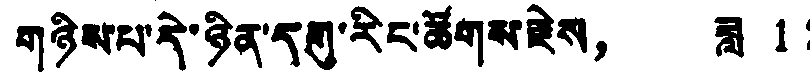གཉིས་པ་དེ་ཉིན་དགུ་རིང་ཚོགས་རྗེས， ཟླ 12
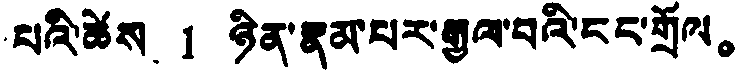པའི་ཚེས 1 ཉིན་རྣམ་པར་རྒྱལ་བའི་ངང་གྲོལ。
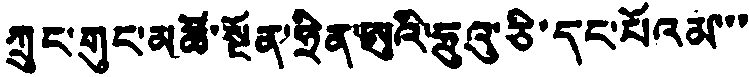ཀྲུང་གུང་མཚོ་སྔོན་ཧྲིན་ཨུའི་ཧྲུའུ་ཅི་དང་པོའམ་་་
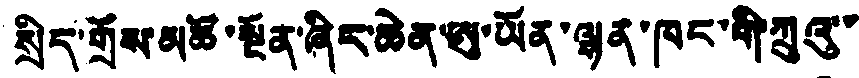སྲིད་གྲོས་མཚོ་སྔོན་ཞིང་ཆེན་ཨུ་ཡོན་ལྷན་ཁང་གི་ཀྲུའུ་
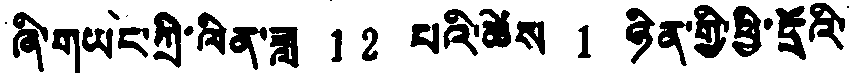ཞི་གཡང་ཀྲི་ལིན་ཟླ 12 པའི་ཚེས 1 ཉིན་གྱི་ཕྱི་དྲོའི་
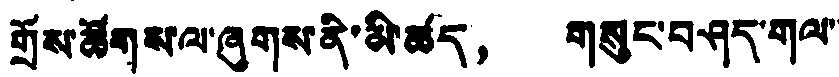གྲོས་ཚོགས་ལ་ཞུགས་ནི་མི་ཚད， གསུང་བཤད་གལ་་
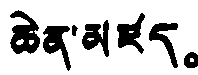ཆེན་མཛད。
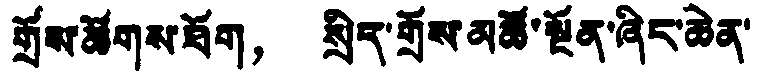གྲོས་ཚོགས་ཐོག， སྲིད་གྲོས་མཚོ་སྔོན་ཞིང་ཆེན་
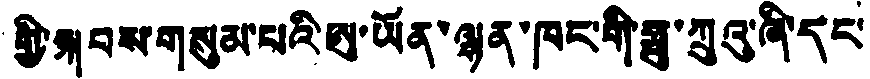གྱི་སྐབས་གསུམ་པའི་ཨུ་ཡོན་ལྷན་ཁང་གི་ཧྥུ་ཀྲུའུ་ཞི་དང་
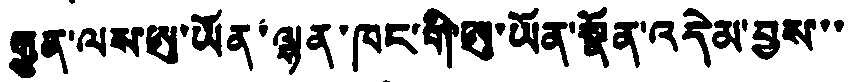རྒྱུན་ལས་ཨུ་ཡོན་ལྷན་ཁང་གི་ཨུ་ཡོན་སྣོན་འདེམ་བྱས་་་
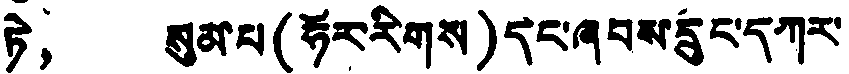ཏེ， སུམ་པ (ཧོར་རིགས) དང་ཞབས་དྲུང་དཀར་
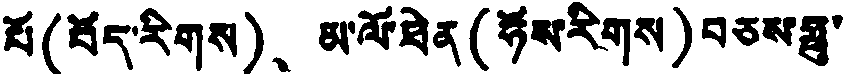པོ (བོད་རིགས)、 མ་ལོ་ཐེན (ཧོས་རིགས) བཅས་ཧྥུ་
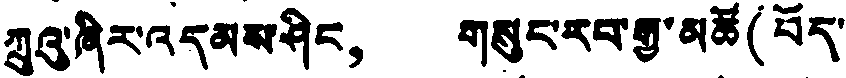ཀྲུའུ་ཞིར་འདམས་ཤིང， གསུང་རབ་རྒྱ་མཚོ (བོད་
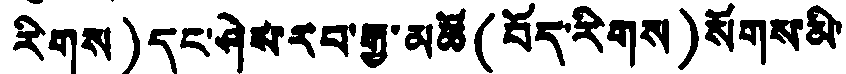རིགས)དང་ཤེས་རབ་རྒྱ་མཚོ (བོད་རིགས) སོགས་མི་
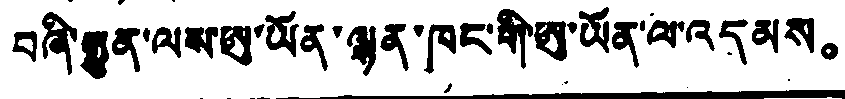བཞི་རྒྱུན་ལས་ཨུ་ཡོན་ལྷན་ཁང་གི་ཨུ་ཡོན་ལ་འདམས。
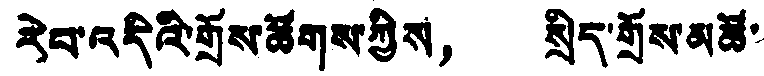རེབ་འདིའི་གྲོས་ཚོགས་ཀྱིས， སྲིད་གྲོས་མཚོ་
